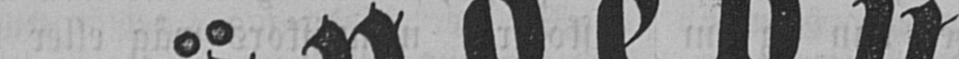Sändebudet.
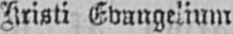Kristi Evangelium
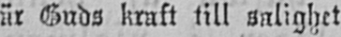är Guds kraft till salighet
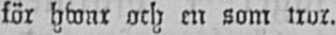för hwar och en som tror.
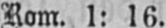Rom. 1: 16.
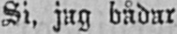Si, jag bådar
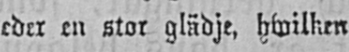eder en stor glädje, hwilken
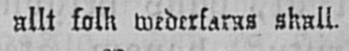allt folk wederfaras skall.
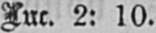Luc. 2: 10.
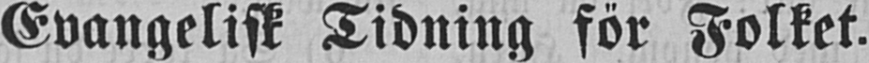Evangelisk Tidning för Folket.
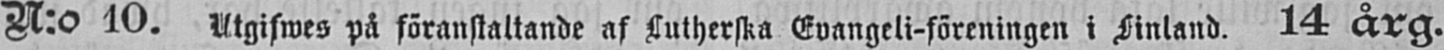N:o 10. Utgifwes på föranstaltande af Lutherska Evangeli-föreningen i Finland. 14 årg.
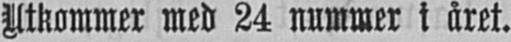Utkommer med 24 nummer i året.
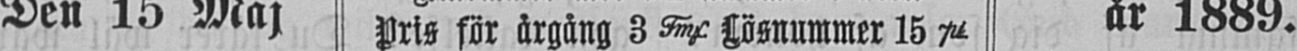Den 15 Maj Pris för årgång 3 Fmf Lösnummer 15 pi. år 1889.
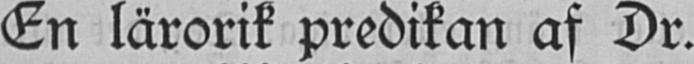En lärorik predikan af Dr.
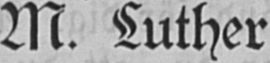M. Luther
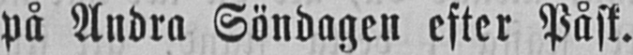på Andra Söndagen efter Påsk.
